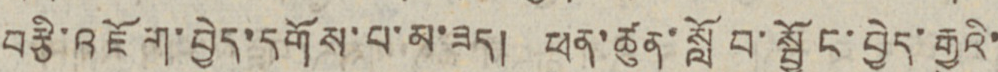བརྩི་འཇོག་བྱེད་དགོས་པ་མ་ཟད། ཕན་ཚུན་སློབ་སྦྱོང་བྱེད་རྒྱུའི་
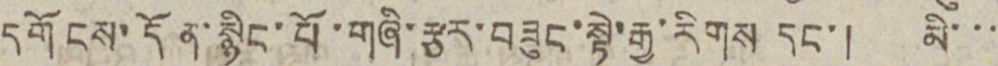དགོངས་དོན་སྙིང་པོ་གཞི་རྩར་བཟུང་སྟེ་རྒྱ་རིགས དང་། མི་་་
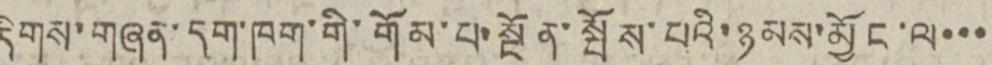རིགས་གཞན་དག་ཁག་གི་གོམ་པ་སྔོན་སྤོས་པའི་ཉམས་མྱོང་ལ་་་
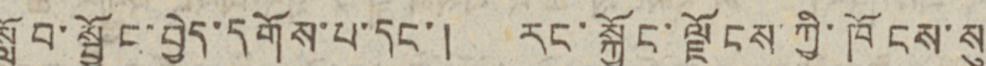སློབ་སྦྱོང་བྱེད་དགོས་པ་དང་། རང་སྐྱོང་ལྗོངས་ཀྱི་ཁོངས་སུ
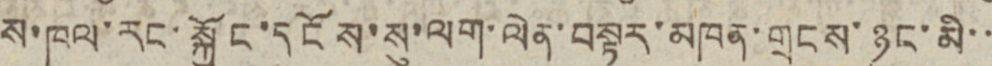ས་ཁུལ་རང་སྐྱོང་དངོས་སུ་ལག་ལེན་བསྟར་མཁན་གྲངས་ཉུང་མི་་
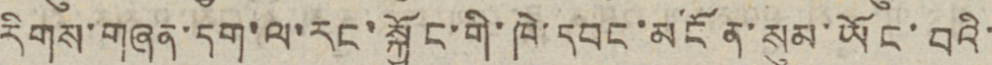རིགས་གཞན་དག་ལ་རང་སྐྱོང་གི་ཁེ་དབང་མངོན་སུམ་ཡོང་བའི་
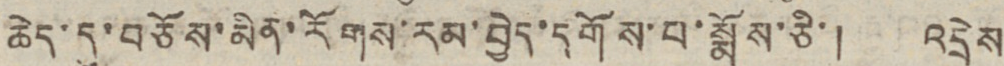ཆེད་དུ་བཅོས་མིན་རོགས་རམ་བྱེད་དགོས་པ་སྨོས་ཅི་། འདྲེས
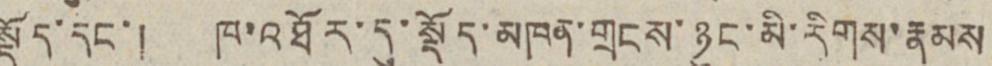སྡོད་དང་། ཁ་འཐོར་དུ་སྡོད་མཁན་གྲངས་ཉུང་མི་རིགས་རྣམས
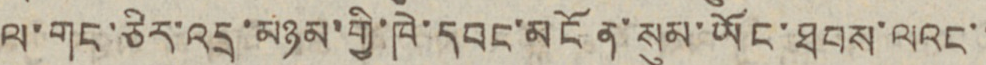ལ་གང་ཅིར་འདྲ་མཉམ་གྱི་ཁེ་དབང་མངོན་སུམ་ཡོང་ཐབས་ལའང་་
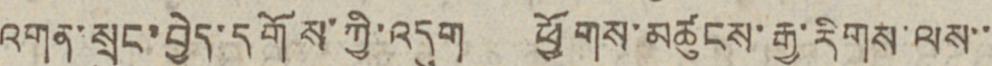འགན་སྲུང་བྱེད་དགོས་ཀྱི་འདུག ཕྱོགས་མཚུངས་རྒྱ་རིགས་ལས་་
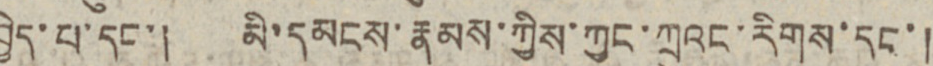བྱེད་པ་དང་། མི་དམངས་རྣམས་ཀྱིས་ཀྱང་ཀྲུའང་རིགས་དང་།
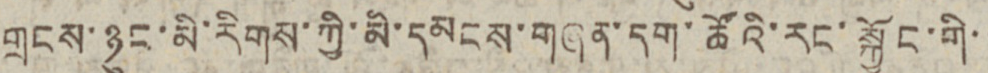གྲངས་ཉུང་མི་རིགས་ཀྱི་མི་དམངས་གཞན་དག་ཚོའི་རང་སྐྱོང་གི་་
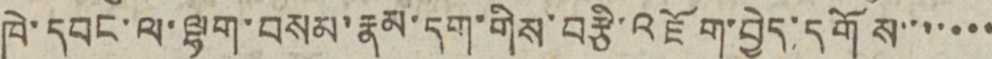ཁེ་དབང་ལ་ལྷག་བསམ་རྣམ་དག་གིས་བརྩི་འཇོག་བྱེད་དགོས་་་་་་་
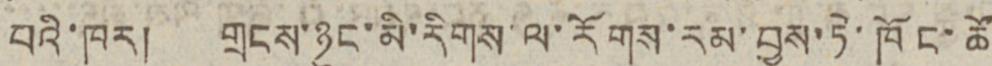པའི་ཁར། གྲངས་ཉུང་མི་རིགས་ལ་རོགས་རམ་བྱས་ཏེ་ཁོང་ཚོ
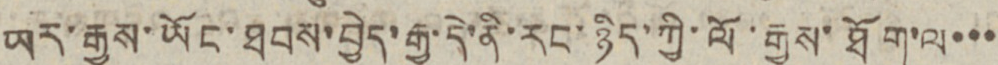ཡར་རྒྱས་ཡོང་ཐབས་བྱེད་རྒྱུ་དེ་ནི་རང་ཉིད་ཀྱི་ལོ་རྒྱུས་ཐོག་ལ་་་
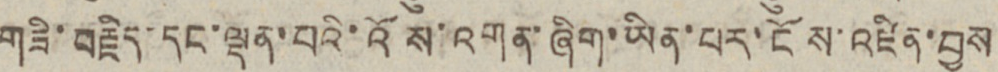གཟི་བརྗོད་དང་ལྡན་པའི་འོས་འགན་ཞིག་ཡིན་པར་ངོས་འཛིན་བྱས
